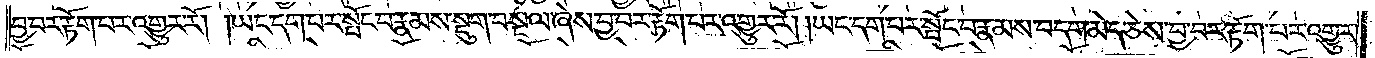བྱ་བར་རྟོག་པར་འགྱུར་རོ། །ཡང་དག་པར་སྤོང་བ་རྣམས་སྡུག་བསྔལ་ཞེས་བྱ་བར་རྟོག་པར་འགྱུར་རོ། །ཡང་དག་པར་སྤོང་བ་རྣམས་བདག་མེད་ཅེས་བྱ་བར་རྟོག་པར་འགྱུར་
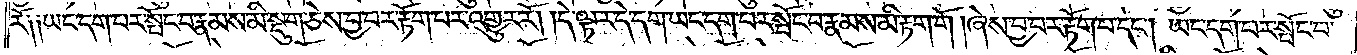རོ༑ ༑ཡང་དག་པར་སྤོང་བ་རྣམས་མི་སྡུག་ཅེས་བྱ་བར་རྟོག་པར་འགྱུར་རོ། །དེ་ལྟར་དེ་དག་ཡང་དག་པར་སྤོང་བ་རྣམས་མི་རྟག་གོ །ཞེས་བྱ་བར་རྟོག་པ་དང༌། ཡང་དག་པར་སྤོང་བ་
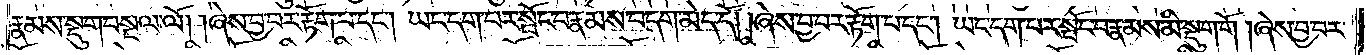རྣམས་སྡུག་བསྔལ་ལོ། །ཞེས་བྱ་བར་རྟོག་པ་དང༌། ཡང་དག་པར་སྤོང་བ་རྣམས་བདག་མེད་དོ། །ཞེས་བྱ་བར་རྟོག་པ་དང༌། ཡང་དག་པར་སྤོང་བ་རྣམས་མི་སྡུག་གོ །ཞེས་བྱ་བར་
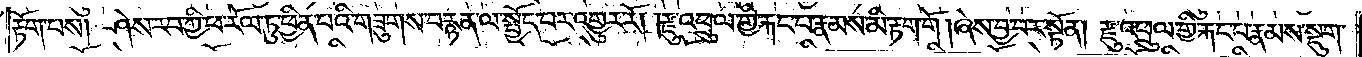རྟོག་པས། ཤེས་རབ་ཀྱི་ཕ་རོལ་ཏུ་ཕྱིན་པའི་གཟུགས་བརྙན་ལ་སྤྱོད་པར་འགྱུར་རོ། །རྫུ་འཕྲུལ་གྱི་རྐང་པ་རྣམས་མི་རྟག་གོ །ཞེས་བྱ་བར་སྟོན། རྫུ་འཕྲུལ་གྱི་རྐང་པ་རྣམས་སྡུག་
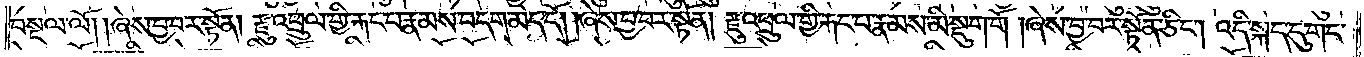བསྔལ་ལོ། །ཞེས་བྱ་བར་སྟོན། རྫུ་འཕྲུལ་གྱི་རྐང་པ་རྣམས་བདག་མེད་དོ། །ཞེས་བྱ་བར་སྟོན། རྫུ་འཕྲུལ་གྱི་རྐང་པ་རྣམས་མི་སྡུག་གོ །ཞེས་བྱ་བར་སྟོན་ཅིང༌། འདི་སྐད་དུ་གང་
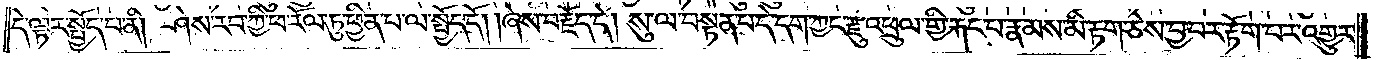དེ་ལྟར་སྤྱོད་པ་ནི། ཤེས་རབ་ཀྱི་ཕ་རོལ་ཏུ་ཕྱིན་པ་ལ་སྤྱོད་དོ། །ཞེས་བརྗོད་དེ། སུ་ལ་བསྟན་པ་དེ་དག་ཀྱང་རྫུ་འཕྲུལ་གྱི་རྐང་པ་རྣམས་མི་རྟག་ཅེས་བྱ་བར་རྟོག་པར་འགྱུར་
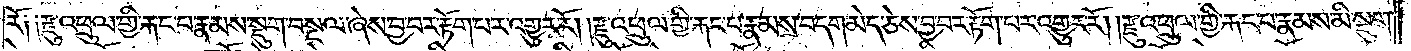རོ༑ ༑རྫུ་འཕྲུལ་གྱི་རྐང་པ་རྣམས་སྡུག་བསྔལ་ཞེས་བྱ་བར་རྟོག་པར་འགྱུར་རོ། །རྫུ་འཕྲུལ་གྱི་རྐང་པ་རྣམས་བདག་མེད་ཅེས་བྱ་བར་རྟོག་པར་འགྱུར་རོ། །རྫུ་འཕྲུལ་གྱི་རྐང་པ་རྣམས་མི་སྡུག་
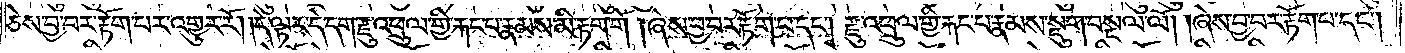ཅེས་བྱ་བར་རྟོག་པར་འགྱུར་རོ། །དེ་ལྟར་དེ་དག་རྫུ་འཕྲུལ་གྱི་རྐང་པ་རྣམས་མི་རྟག་གོ །ཞེས་བྱ་བར་རྟོག་པ་དང༌། རྫུ་འཕྲུལ་གྱི་རྐང་པ་རྣམས་སྡུག་བསྔལ་ལོ། །ཞེས་བྱ་བར་རྟོག་པ་དང༌།
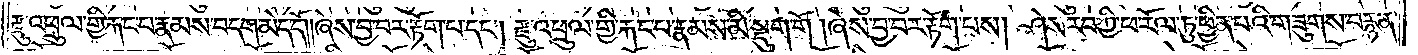རྫུ་འཕྲུལ་གྱི་རྐང་པ་རྣམས་བདག་མེད་དོ། །ཞེས་བྱ་བར་རྟོག་པ་དང༌། རྫུ་འཕྲུལ་གྱི་རྐང་པ་རྣམས་མི་སྡུག་གོ །ཞེས་བྱ་བར་རྟོག་པས། ཤེས་རབ་ཀྱི་ཕ་རོལ་ཏུ་ཕྱིན་པའི་གཟུགས་བརྙན་
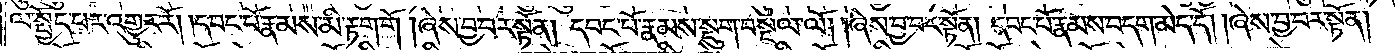ལ་སྤྱོད་པར་འགྱུར་རོ། །དབང་བོ་རྣམས་མི་རྟག་གོ །ཞེས་བྱ་བར་སྟོན། དབང་པོ་རྣམས་སྡུག་བསྔལ་ལོ། །ཞེས་བྱ་བར་སྟོན། དབང་པོ་རྣམས་བདག་མེད་དོ། །ཞེས་བྱ་བར་སྟོན།
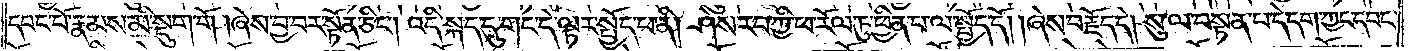དབང་པོ་རྣམས་མི་སྡུག་གོ །ཞེས་བྱ་བར་སྟོན་ཅིང༌། འདི་སྐད་དུ་གང་དེ་ལྟར་སྤྱོད་པ་ནི། ཤེས་རབ་ཀྱི་ཕ་རོལ་ཏུ་ཕྱིན་པ་ལ་སྤྱོད་དོ། །ཞེས་བརྗོད་དེ། སུ་ལ་བསྟན་པ་དེ་དག་ཀྱང་དབང་
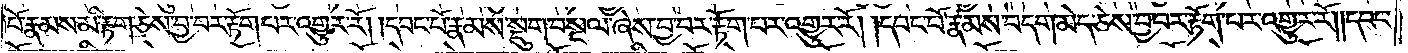པོ་རྣམས་མི་རྟག་ཅེས་བྱ་བར་རྟོག་པར་འགྱུར་རོ། །དབང་པོ་རྣམས་སྡུག་བསྔལ་ཞེས་བྱ་བར་རྟོག་པར་འགྱུར་རོ། །དབང་པོ་རྣམས་བདག་མེད་ཅེས་བྱ་བར་རྟོག་པར་འགྱུར་རོ། །དབང་
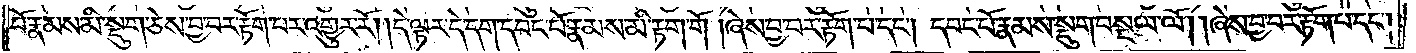པོ་རྣམས་མི་སྡུག་ཅེས་བྱ་བར་རྟོག་པར་འགྱུར་རོ། །དེ་ལྟར་དེ་དག་དབང་པོ་རྣམས་མི་རྟག་གོ །ཞེས་བྱ་བར་རྟོག་པ་དང༌། དབང་པོ་རྣམས་སྡུག་བསྔལ་ལོ། །ཞེས་བྱ་བར་རྟོག་པ་དང༌།
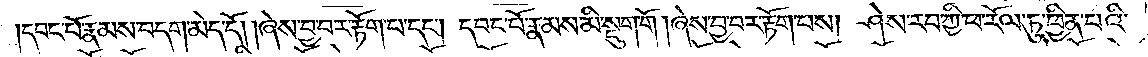དབང་པོ་རྣམས་བདག་མེད་དོ། །ཞེས་བྱ་བར་རྟོག་པ་དང༌། དབང་པོ་རྣམས་མི་སྡུག་གོ །ཞེས་བྱ་བར་རྟོག་པས། ཤེས་རབ་ཀྱི་ཕ་རོལ་ཏུ་ཕྱིན་པའི་
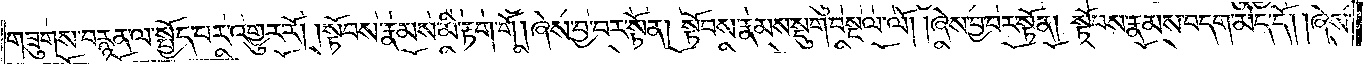གཟུགས་བརྙན་ལ་སྤྱོད་པར་འགྱུར་རོ། །སྟོབས་རྣམས་མི་རྟག་གོ །ཞེས་བྱ་བར་སྟོན། སྟོབས་རྣམས་སྡུག་བསྔལ་ལོ། །ཞེས་བྱ་བར་སྟོན། སྟོབས་རྣམས་བདག་མེད་དོ། །ཞེས་
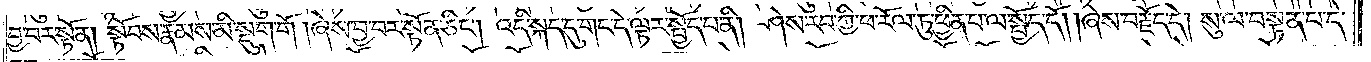བྱ་བར་སྟོན། སྟོབས་རྣམས་མི་སྡུག་གོ །ཞེས་བྱ་བར་སྟོན་ཅིང༌། འདི་སྐད་དུ་གང་དེ་ལྟར་སྤྱོད་པ་ནི། ཤེས་རབ་ཀྱི་ཕ་རོལ་ཏུ་ཕྱིན་པ་ལ་སྤྱོད་དོ། །ཞེས་བརྗོད་དེ། སུ་ལ་བསྟན་པ་དེ་
